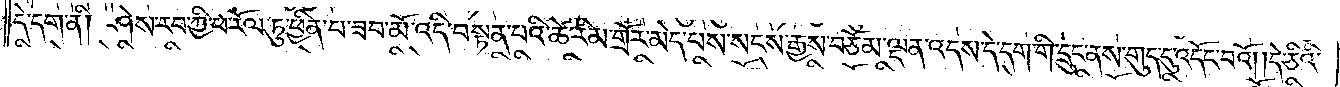དེ་དག་ནི། ཤེས་རབ་ཀྱི་ཕ་རོལ་ཏུ་ཕྱིན་པ་ཟབ་མོ་འདི་བསྟན་པའི་ཚེ་རིམ་གྲོར་མེད་པས་སངས་རྒྱས་བཅོམ་ལྡན་འདས་དེ་དག་གི་དྲུང་ནས་གུད་དུ་འདོང་བའོ། །དེ་ཅིའི་
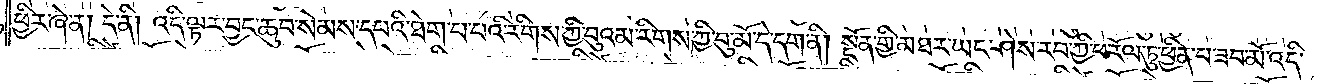ཕྱིར་ཞེ་ན། དེ་ནི། འདི་ལྟར་བྱང་ཆུབ་སེམས་དཔའི་ཐེག་པ་པའི་རིགས་ཀྱི་བུའམ་རིགས་ཀྱི་བུ་མོ་དེ་དག་ནི། སྔོན་གྱི་མཐར་ཡང་ཤེས་རབ་ཀྱི་ཕ་རོལ་ཏུ་ཕྱིན་པ་ཟབ་མོ་འདི་
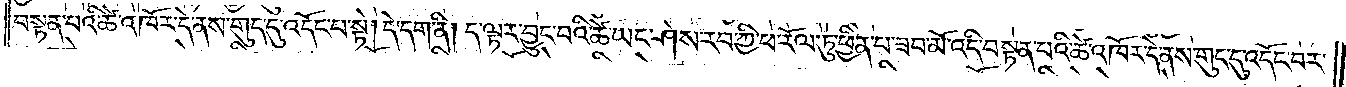བསྟན་པའི་ཚེ་འཁོར་དེ་ནས་གུད་དུ་འདོང་པ་སྟེ། དེ་དག་ནི། ད་ལྟར་བྱུང་བའི་ཚེ་ཡང་ཤེས་རབ་ཀྱི་ཕ་རོལ་ཏུ་ཕྱིན་པ་ཟབ་མོ་འདི་བསྟན་པའི་ཚེ་འཁོར་དེ་ནས་གུད་དུ་འདོང་བར་
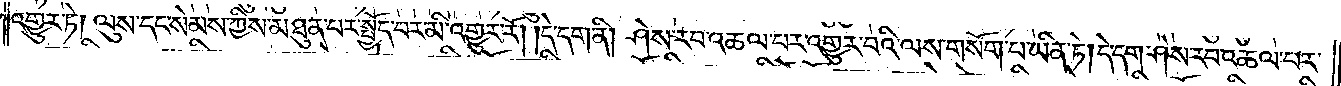འགྱུར་ཏེ། ལུས་དང་སེམས་ཀྱིས་མཐུན་པར་སྤྱོད་པར་མི་འགྱུར་རོ། །དེ་དག་ནི། ཤེས་རབ་འཆལ་པར་འགྱུར་བའི་ལས་གསོག་པ་ཡིན་ཏེ། དེ་དག་ཤེས་རབ་འཆལ་པར་
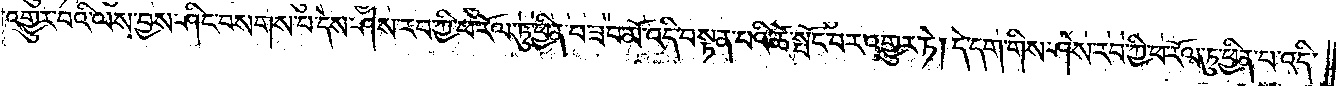འགྱུར་བའི་ལས་བྱས་ཤིང་བསགས་པ་དེས་ཤེས་རབ་ཀྱི་ཕ་རོལ་ཏུ་ཕྱིན་པ་ཟབ་མོ་འདི་བསྟན་པའི་ཚེ་སྤོང་བར་འགྱུར་ཏེ། དེ་དག་གིས་ཤེས་རབ་ཀྱི་ཕ་རོལ་ཏུ་ཕྱིན་པ་འདི་
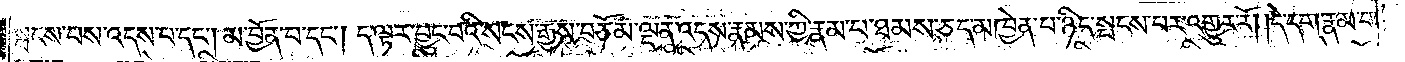སྤངས་པས་འདས་པ་དང༌། མ་བྱོན་པ་དང༌། ད་ལྟར་བྱུང་བའི་སངས་རྒྱས་བཅོམ་ལྡན་འདས་རྣམས་ཀྱི་རྣམ་པ་ཐམས་ཅད་མཁྱེན་པ་ཉིད་སྤངས་པར་འགྱུར་རོ། །དེ་དག་རྣམ་པ་
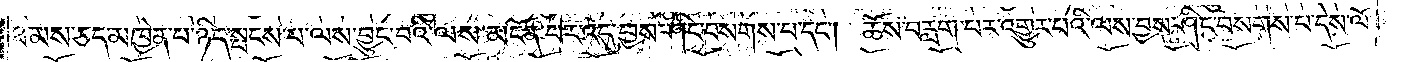ཐམས་ཅད་མཁྱེན་པ་ཉིད་སྤངས་པ་ལས་བྱུང་བའི་ལས་མངོན་པར་འདུ་བྱས་ཤིང་བསགས་པ་དང༌། ཆོས་བརླག་པར་འགྱུར་བའི་ལས་བྱས་ཤིང་བསགས་པ་དེས་ལོ་
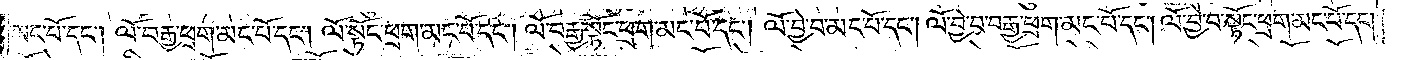མང་པོ་དང༌། ལོ་བརྒྱ་ཕྲག་མང་པོ་དང༌། ལོ་སྟོང་ཕྲག་མང་པོ་དང༌། ལོ་བརྒྱ་སྟོང་ཕྲག་མང་པོ་དང༌། ལོ་བྱེ་བ་མང་པོ་དང༌། ལོ་བྱེ་བ་བརྒྱ་ཕྲག་མང་པོ་དང༌། ལོ་བྱེ་བ་སྟོང་ཕྲག་མང་པོ་དང༌།
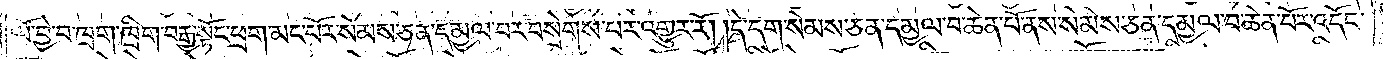ལོ་བྱེ་བ་ཁྲག་ཁྲིག་བརྒྱ་སྟོང་ཕྲག་མང་པོར་སེམས་ཅན་དམྱལ་བར་བསྲེགས་པར་འགྱུར་རོ། །དེ་དག་སེམས་ཅན་དམྱལ་བ་ཆེན་པོ་ནས་སེམས་ཅན་དམྱལ་བ་ཆེན་པོར་འདོང་
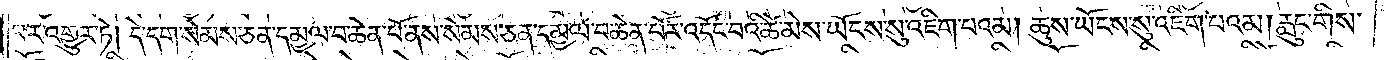བར་འགྱུར་ཏེ། དེ་དག་སེམས་ཅན་དམྱལ་བ་ཆེན་པོ་ནས་སེམས་ཅན་དམྱལ་བ་ཆེན་པོར་འདོང་བའི་ཚེ་མེས་ཡོངས་སུ་འཇིག་པའམ། ཆུས་ཡོངས་སུ་འཇིག་པའམ། རླུང་གིས་
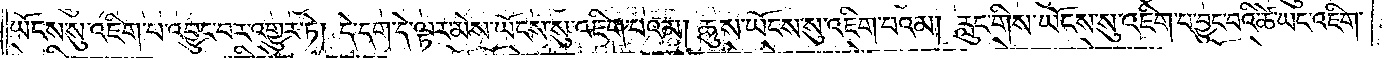ཡོངས་སུ་འཇིག་པ་འབྱུང་བར་འགྱུར་ཏེ། དེ་དག་དེ་ལྟར་མེས་ཡོངས་སུ་འཇིག་པའམ། ཆུས་ཡོངས་སུ་འཇིག་པའམ། རླུང་གིས་ཡོངས་སུ་འཇིག་པ་བྱུང་བའི་ཚེ་ཡང་འཇིག་
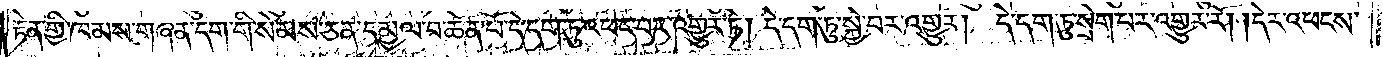རྟེན་གྱི་ཁམས་གཞན་དག་གི་སེམས་ཅན་དམྱལ་བ་ཆེན་པོ་དེ་དག་ཏུ་འཕང་བར་འགྱུར་ཏེ། དེ་དག་ཏུ་སྐྱེ་བར་འགྱུར། དེ་དག་ཏུ་སྲེག་པར་འགྱུར་རོ། །དེར་འཕངས་
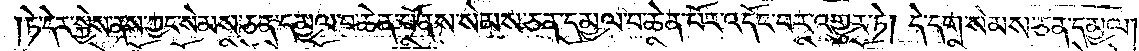ཏེ་དེར་སྐྱེས་ནས་ཀྱང་སེམས་ཅན་དམྱལ་བ་ཆེན་པོ་ནས་སེམས་ཅན་དམྱལ་བ་ཆེན་པོར་འདོང་བར་འགྱུར་ཏེ། དེ་དག་སེམས་ཅན་དམྱལ་
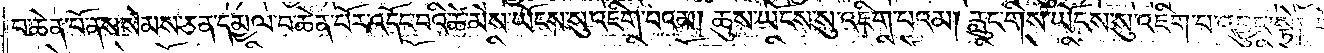བ་ཆེན་པོ་ནས་སེམས་ཅན་དམྱལ་བ་ཆེན་པོར་འདོང་བའི་ཚེ་མེས་ཡོངས་སུ་འཇིག་པའམ། ཆུས་ཡོངས་སུ་འཇིག་པའམ། རླུང་གིས་ཡོངས་སུ་འཇིག་པ་འབྱུང་སྟེ། དེ་
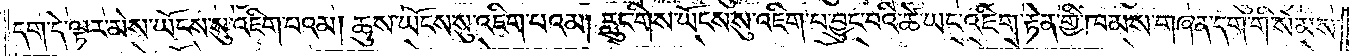དག་དེ་ལྟར་མེས་ཡོངས་སུ་འཇིག་པའམ། ཆུས་ཡོངས་སུ་འཇིག་པའམ། རླུང་གིས་ཡོངས་སུ་འཇིག་པ་བྱུང་བའི་ཚེ་ཡང་འཇིག་རྟེན་གྱི་ཁམས་གཞན་དག་གི་སེམས་
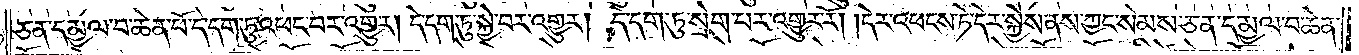ཅན་དམྱལ་བ་ཆེན་པོ་དེ་དག་ཏུ་འཕང་བར་འགྱུར། དེ་དག་ཏུ་སྐྱེ་བར་འགྱུར། དེ་དག་ཏུ་སྲེག་པར་འགྱུར་རོ། །དེར་འཕངས་ཏེ་དེར་སྐྱེས་ནས་ཀྱང་སེམས་ཅན་དམྱལ་བ་ཆེན་
